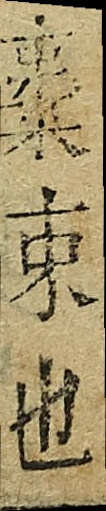棄束也
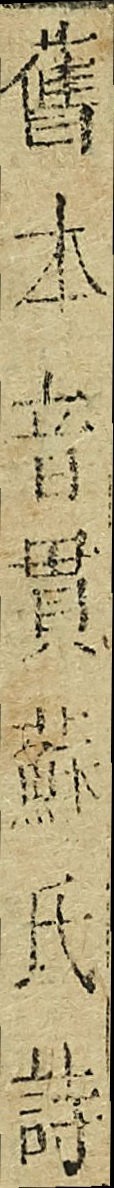舊本音貫蘇氏詩
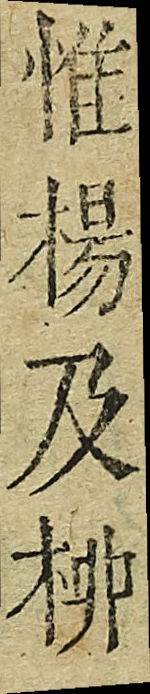惟楊及柳
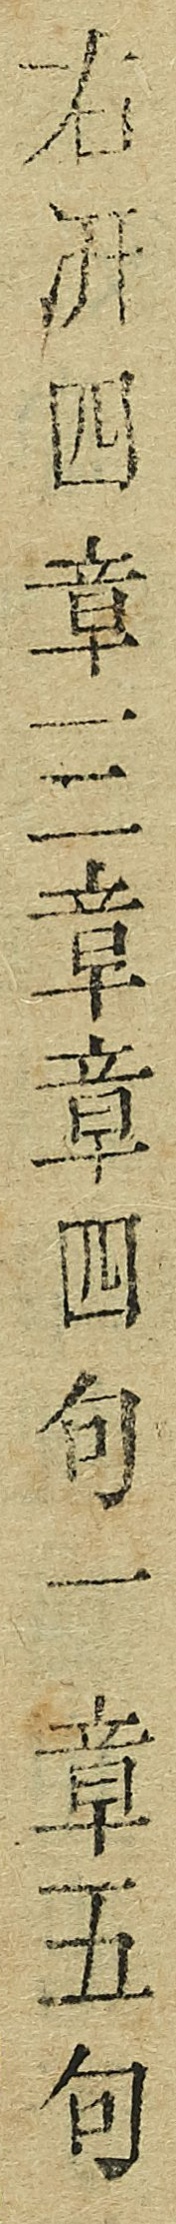右汧四章三章章四句一章五句
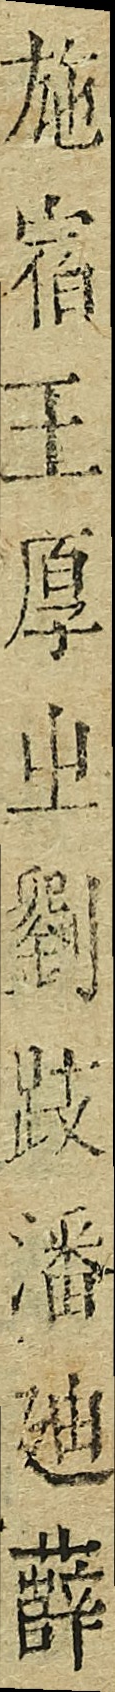施宿王厚車？劉跂潘迪薛
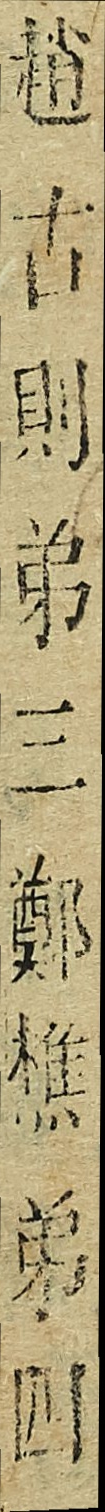趙古則弟三鄭樵弟四
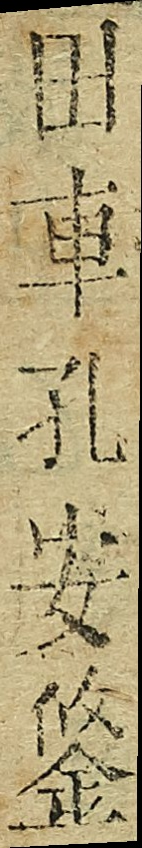田車孔安鉴
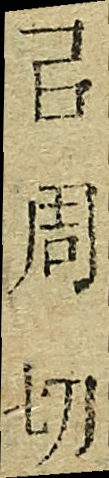呂周切
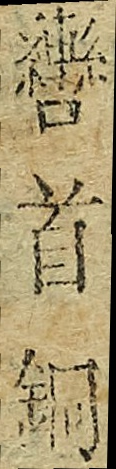簪？首銅
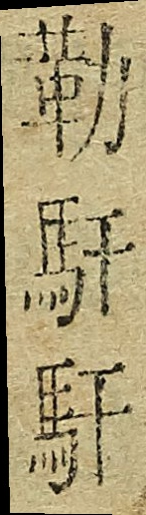勒馯馯
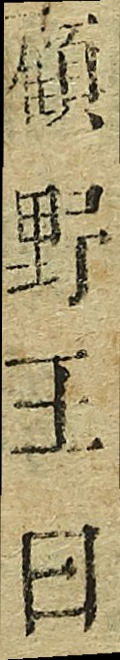顧野王曰
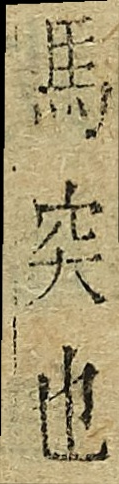馬突也
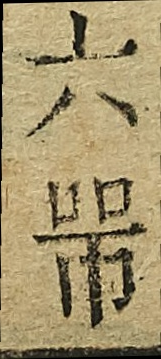六（口口帀）
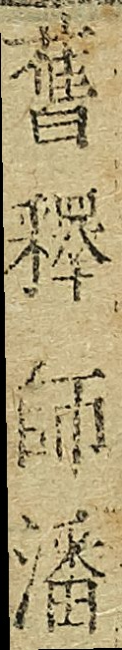舊釋師潘
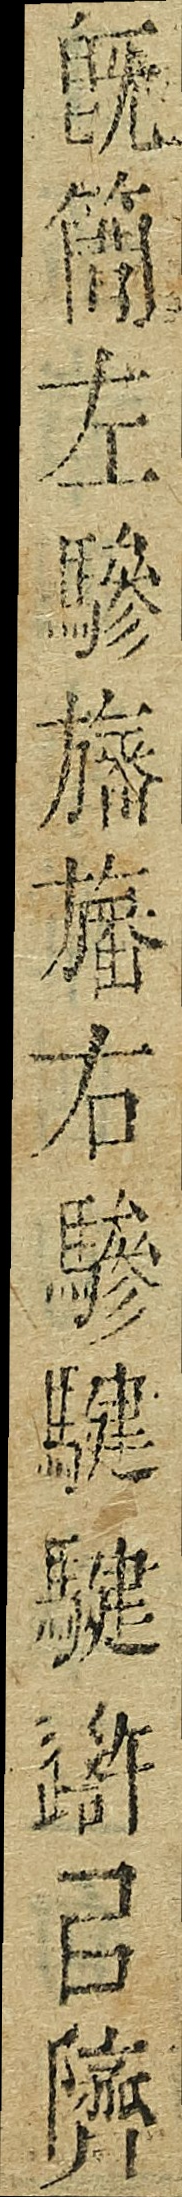旣簡左驂旃驀右驂騝騝鏘呂儕
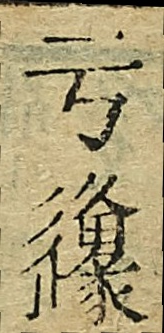亏？
